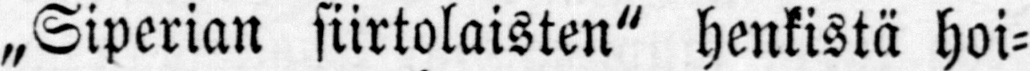„Siperian siirtolaisten" henkistä hoi-
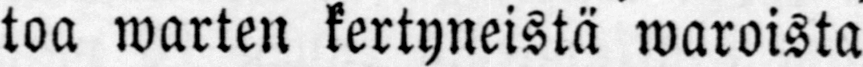toa warten kertyneistä waroista
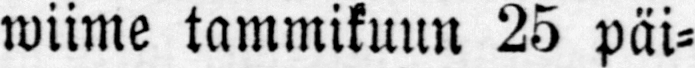wiime tammikuun 25 päi-
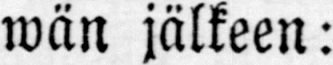wän jälkeen:
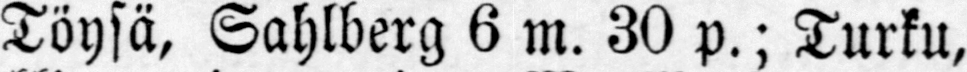Töysä, Sahlberg 6 m. 30 p.; Turku,
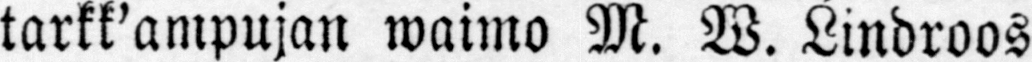tarkk'ampujan waimo M. W. Lindroos
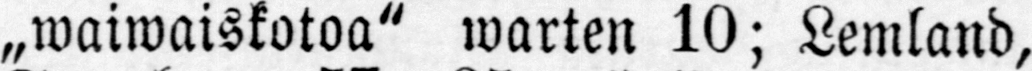„waiwaiskotoa" warten 10; Lemland,
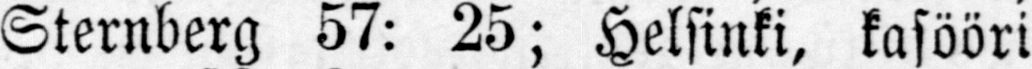Sternberg 57: 25; Helsinki, kasööri
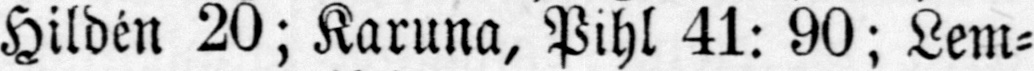Hildén 20; Karuna, Pihl 41: 90; Lem-
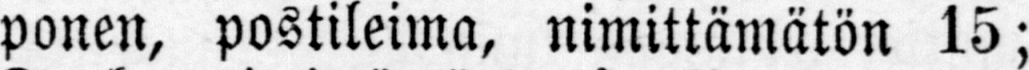ponen, postileima, nimittämätön 15;
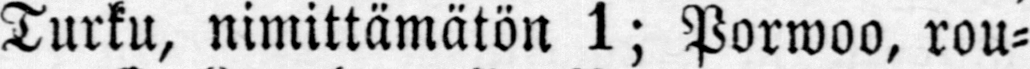Turku, nimittämätön 1; Porwoo, rou-
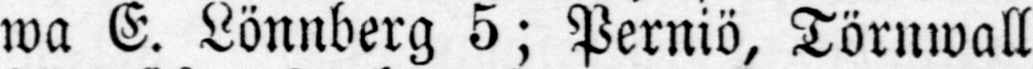wa E. Lönnberg 5; Perniö, Törnwall
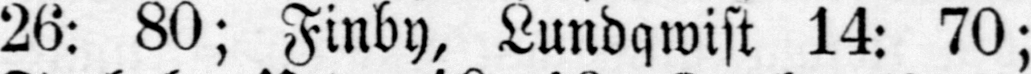26: 80; Finby, Lundqwist 14: 70;
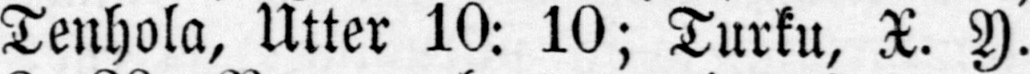Tenhola, Utter 10: 10; Turku, X. Y.
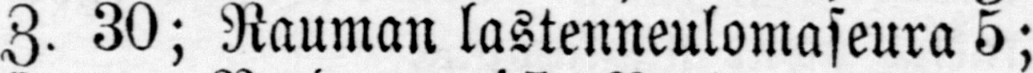Z. 30; Rauman lastenneulomaseura 5 ;
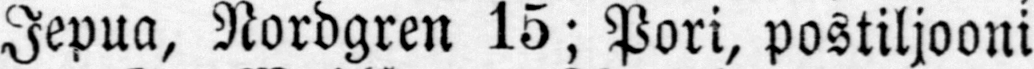Jepua, Nordgren 15; Pori, postiljooni
